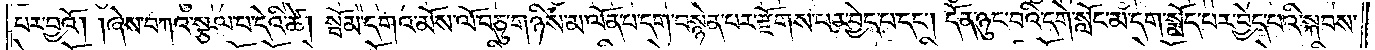པར་བྱའོ། །ཞེས་བཀའ་སྩལ་པ་དེའི་ཚེ། སྦོམ་དགའ་མོས་ལོ་བཅུ་གཉིས་མ་ལོན་པ་དག་བསྙེན་པར་རྫོགས་པར་བྱེད་པ་དང༌། དོན་ཉུང་བའི་དགེ་སློང་མ་དག་སྨོད་པར་བྱེད་པའི་སྐབས་
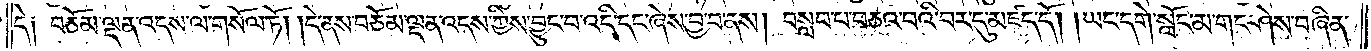དེ༑ བཅོམ་ལྡན་འདས་ལ་གསོལ་ཏོ། །དེ་ནས་བཅོམ་ལྡན་འདས་ཀྱིས་བྱུང་བ་འདི་དང་ཞེས་བྱ་བ་ནས། བསླབ་པ་བཅའ་བའི་བར་དུ་མཛད་དོ། །ཡང་དགེ་སློང་མ་གང་ཤེས་བཞིན་
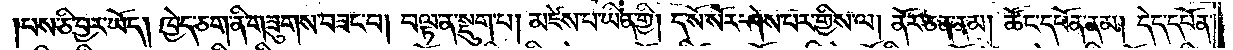།པས་ཅི་བྱར་ཡོད། ཁྱེད་ཅག་ནི་གཟུགས་བཟང་བ། བལྟ་ན་སྡུག་པ། མཛེས་པ་ཡིན་གྱི། ད་སོ་སོར་ཤེས་པར་གྱིས་ལ། ནོར་ཅན་ནམ། ཚོང་དཔོན་ནམ། དེད་དཔོན་
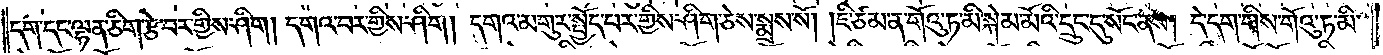དག་དང་ལྷན་ཅིག་རྩེ་བར་གྱིས་ཤིག། དགའ་བར་གྱིས་ཤིག། དགའ་མགུར་སྤྱོད་པར་གྱིས་ཤིག་ཅེས་སྨྲས་སོ། །ཇི་ཙམ་ན་གོའུ་ཏ་མི་སྐེམ་མོའི་དྲུང་དུ་སོང་ནས། དེ་དག་གིས་གོའུ་ཏ་མི་
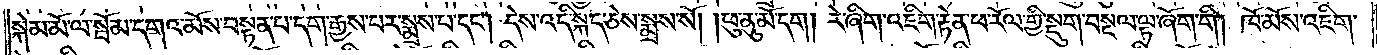སྐེམ་མོ་ལ་སྦོམ་དགའ་མོས་བསྟན་པ་དག་རྒྱས་པར་སྨྲས་པ་དང༌། དེས་འདི་སྐད་ཅེས་སྨྲས་སོ། །ཕུ་ནུ་མོ་དག། རེ་ཞིག་འཇིག་རྟེན་ཕ་རོལ་གྱི་སྡུག་བསྔལ་ལྟ་ཞོག་གི། ཁོ་མོས་འཇིག་
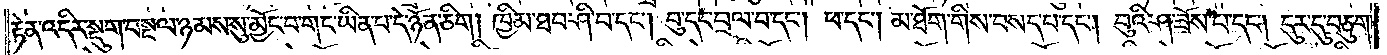རྟེན་འདིར་སྡུག་བསྔལ་ཉམས་སུ་མྱོང་བ་གང་ཡིན་པ་དེ་ཉོན་ཅིག། ཁྱིམ་ཐབ་ཤི་བ་དང༌། བུ་དང་བྲལ་བ་དང༌། ཕ་དང༌། མ་ཐོག་གིས་བསད་པ་དང༌། བུའི་ཤ་ཟོས་པ་དང༌། དུར་དུ་བཅུག་
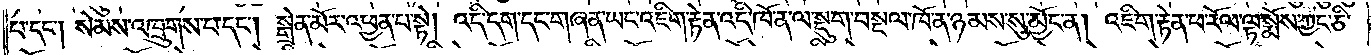པ་དང༌། སེམས་འཁྲུགས་པ་དང༌། སྒྲེན་མོར་འཕྱན་པ་སྟེ། འདི་དག་དང་གཞན་ཡང་འཇིག་རྟེན་འདི་ཁོ་ན་ལ་སྡུག་བསྔལ་ཁོ་ན་ཉམས་སུ་མྱོང་ན། འཇིག་རྟེན་ཕ་རོལ་ལྟ་སྨོས་ཀྱང་ཅི་
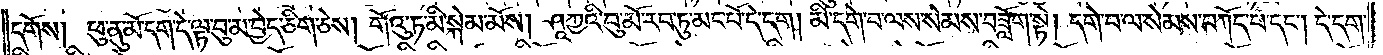དགོས། ཕུ་ནུ་མོ་དག་དེ་ལྟ་བུ་མ་བྱེད་ཅིག་ཅེས། གོའུ་ཏ་མི་སྐེམ་མོས། ཤཱཀྱའི་བུ་མོ་རབ་ཏུ་མང་པོ་དེ་དག། མི་དགེ་བ་ལས་སེམས་བཟློག་སྟེ། དགེ་བ་ལ་སེམས་བཀོད་པ་དང༌། དེ་དག་
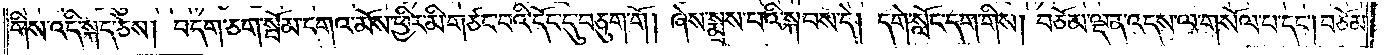གིས་འདི་སྐད་ཅེས། བདག་ཅག་སྦོམ་དགའ་མོས་ཕྱིར་མི་གཙང་བའི་དོང་དུ་བཅུག་གོ། ཞེས་སྨྲས་པའི་སྐབས་དེ། དགེ་སློང་དག་གིས། བཅོམ་ལྡན་འདས་ལ་གསོལ་པ་དང༌། བཅོམ་
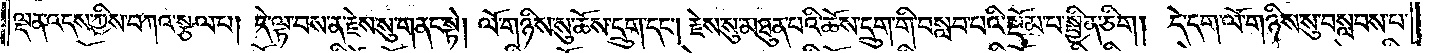ལྡན་འདས་ཀྱིས་བཀའ་སྩལ་པ། དེ་ལྟ་བས་ན་རྗེས་སུ་གནང་སྟེ། ལོ་གཉིས་སུ་ཆོས་དྲུག་དང༌། རྗེས་སུ་མཐུན་པའི་ཆོས་དྲུག་གི་བསླབ་པའི་སྡོམ་པ་སྦྱིན་ཅིག། དེ་དག་ལོ་གཉིས་སུ་བསླབས་པ་
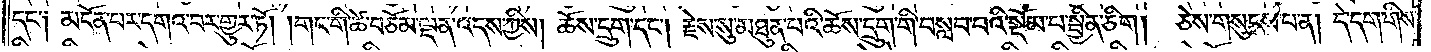དང་༑ མངོན་པར་དགའ་བར་གྱུར་ཏོ། །གང་གི་ཚེ་བཅོམ་ལྡན་འདས་ཀྱིས། ཆོས་དྲུག་དང༌། རྗེས་སུ་མཐུན་པའི་ཆོས་དྲུག་གི་བསླབ་པའི་སྡོམ་པ་སྦྱིན་ཅིག། ཅེས་གསུངས་པ་ན། དེ་དག་གིས་
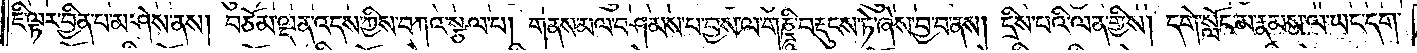ཇི་ལྟར་བྱིན་པ་མ་ཤེས་ནས། བཅོམ་ལྡན་འདས་ཀྱིས་བཀའ་སྩལ་པ། གནས་མལ་བཤམས་པ་བྱས་ལ་གཎྜཱི་བརྡུངས་ཏེ་ཞེས་བྱ་བ་ནས། དྲིས་པའི་ལན་གྱིས། དགེ་སློང་མ་རྣམས་ལ་ཡང་དག་
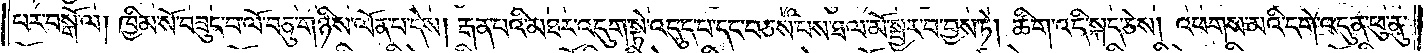པར་བསྒོ་ལ། ཁྱིམ་སོ་བཟུང་བ་ལོ་བཅུ་གཉིས་ལོན་པ་དེས། རྒན་པའི་མཐར་འདུག་སྟེ་འདུད་པ་དང་བཅས་པས་ཐལ་མོ་སྦྱར་བ་བྱས་ཏེ། ཚིག་འདི་སྐད་ཅེས། འཕགས་མའི་དགེ་འདུན་ཕུ་ནུ་
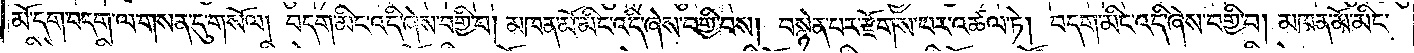མོ་དག་བདག་ལ་གསན་དུ་གསོལ། བདག་མིང་འདི་ཞེས་བགྱི་བ། མཁན་མོ་མིང་འདི་ཞེས་བགྱི་བས། བསྙེན་པར་རྫོགས་པར་འཚལ་ཏེ། བདག་མིང་འདི་ཞེས་བགྱི་བ། མཁན་མོ་མིང་
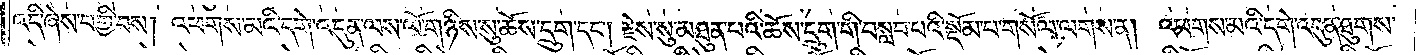འདི་ཞེས་བགྱི་བས། འཕགས་མའི་དགེ་འདུན་ལས་ལོ་གཉིས་སུ་ཆོས་དྲུག་དང༌། རྗེས་སུ་མཐུན་པའི་ཆོས་དྲུག་གི་བསླབ་པའི་སྡོམ་པ་གསོལ་ལགས་ན། འཕགས་མའི་དགེ་འདུན་ཐུགས་
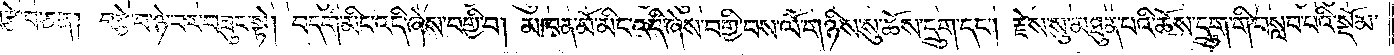བརྩེ་བ་ཅན། བརྩེ་བ་ཉེ་བར་བཟུང་སྟེ། བདག་མིང་འདི་ཞེས་བགྱི་བ། མཁན་མོ་མིང་འདི་ཞེས་བགྱི་བས་ལོ་གཉིས་སུ་ཆོས་དྲུག་དང༌། རྗེས་སུ་མཐུན་པའི་ཆོས་དྲུག་གི་བསླབ་པའི་སྡོམ་
